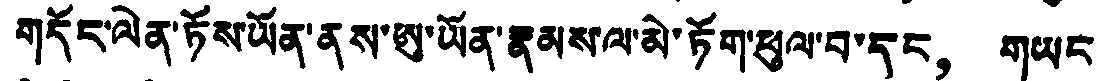གདོང་ལེན་ཏོས་ཡོན་ནས་ཨུ་ཡོན་རྣམས་ལ་མེ་ཏོག་ཕུལ་བ་དང， གཡང
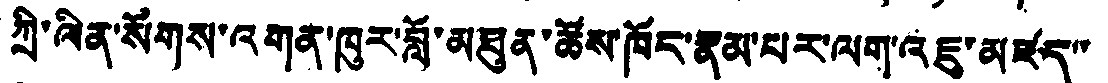ཀྲི་ལིན་སོགས་འགན་ཁུར་བློ་མཐུན་ཚོས་ཁོད་རྣམ་པར་ལག་འཇུ་མཛད་་
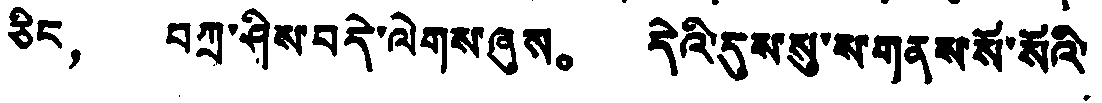ཅིང， བཀྲ་ཤིས་བདེ་ལེགས་ཞུས。 དེའི་དུས་སུ་ས་གནས་སོ་སོའི་
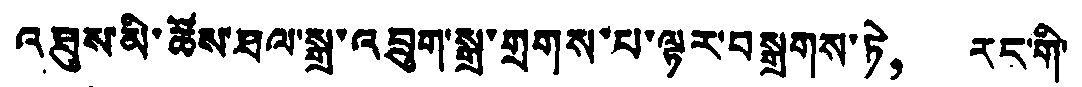འཐུས་མི་ཚོས་ཐལ་སྒྲ་འབྲུག་སྒྲ་གྲགས་པ་ལྟར་བསྒྲགས་ཏེ， རང་གི་
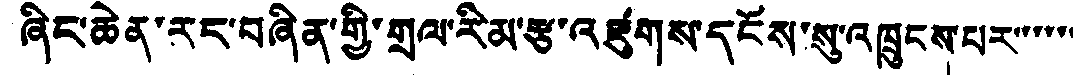ཞིང་ཆེན་རང་བཞིན་གྱི་གྲལ་རིམ་རྩ་འཛུགས་དངོས་སུ་འཁྲུངས་པར་་་་་་
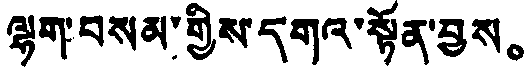ལྷག་བསམ་གྱིས་དགའ་སྟོན་བྱས。
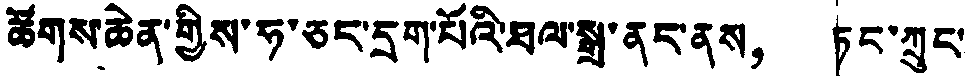ཚོགས་ཆེན་གྱིས་ཧ་ཅང་དྲུག་པའི་ཐལ་སྒྲ་ནང་ནས， ཏང་ཀྲུང་
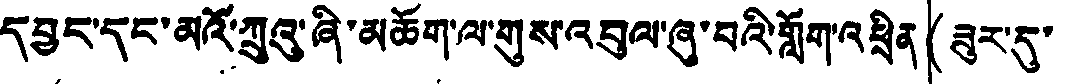དབྱུང་དང་མའོ་ཀྲུའུ་ཞི་མཆོག་ལ་གུས་འབུལ་ཞུ་བའི་གློག་འཕྲིན (ཟུར་དུ་
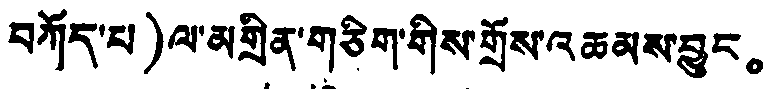བཀོད་པ) ལ་མགྲིན་གཅིག་གིས་གྲོས་འཆམས་བྱུང。
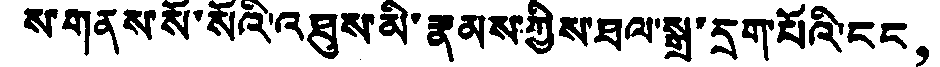ས་གནས་སོ་སོའི་འཐུས་མི་རྣམས་ཀྱིས་ཐལ་སྒྲ་དྲག་པོའི་ངང，
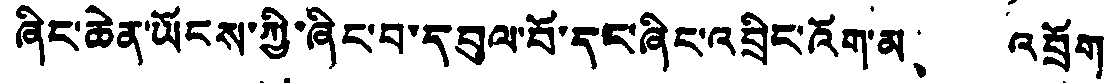ཞིང་ཆེན་ཡོངས་ཀྱི་ཞིང་བ་དབུལ་བོ་དང་ཞིང་འབྲིང་འོག་མ、 འབྲོག་
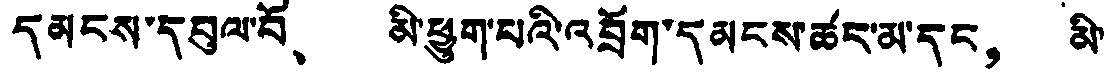དམངས་དབུལ་བོ、 མི་ཕྱུག་པའི་འབྲོག་དམངས་ཚང་མ་དང， མི་་
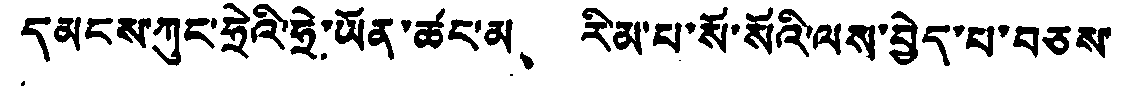དམངས་ཀུང་ཧྲེའི་ཧྲེ་ཡོན་ཚང་མ、 རིམ་པ་སོ་སོའི་ལས་བྱེད་པ་བཅས་
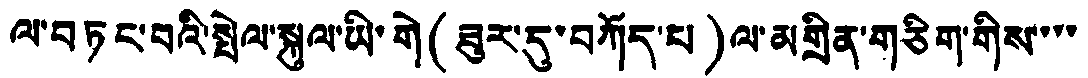ལ་བཏང་བའི་སྤེལ་སྐུལ་ཡི་གེ (ཟུར་དུ་བཀོད་པ) ལ་མགྲིན་གཅིག་གིས་་་་
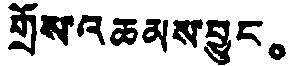གྲོས་འཆམས་བྱུང。
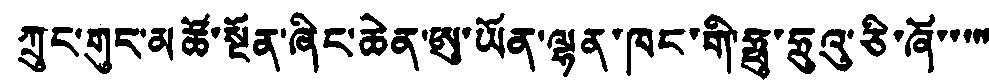ཀྲུང་གུང་མཚོ་སྔོན་ཞིང་ཆེན་ཨུ་ཡོན་ལྷན་ཁང་གི་ཧྥུ་ཧྲུའུ་ཅི་ཞོ་་་་་་
